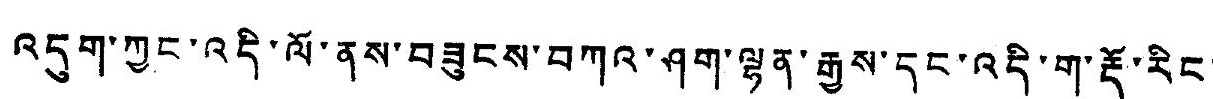འདུག་ཀྱང་འདི་ལོ་ནས་བཟུངས་བཀའ་ཤག་ལྷན་རྒྱས་དང་འདི་ག་རྡོ་རིང་
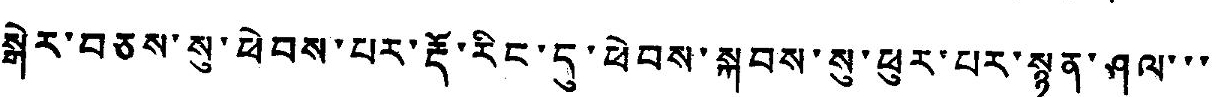སྒེར་བཅས་སུ་ཕེབས་པར་རྡོ་རིང་དུ་ཕེབས་སྐབས་སུ་ཕུར་པར་སྙན་ཤལ་་་
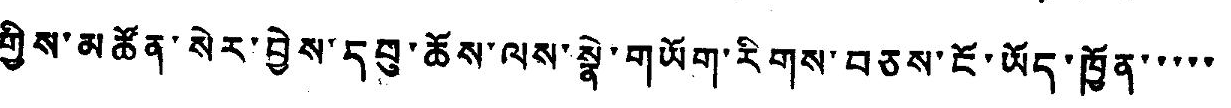གྱིས་མཚོན་སེར་བྱེས་དབུ་ཆོས་ལས་སྣེ་གཡོག་རིགས་བཅས་ངོ་ཡོད་ཁྱོན་་་་་
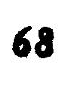68
